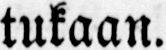tukaan.
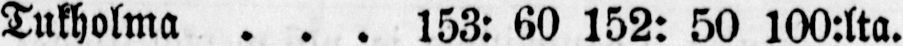Tukholma . . . 153: 60 152: 50 100:lta.
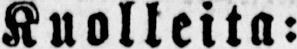Kuolleita:
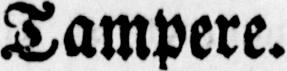Tampere.
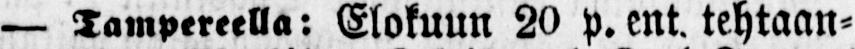— Tampereella : Elokuun 20 p. ent. tehtaan-
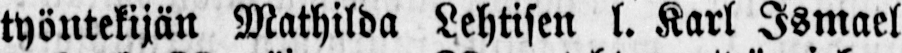työntekijän Mathilda Lehtisen l. Karl Ismael
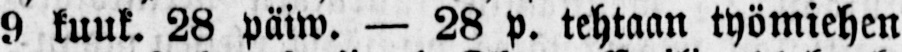9 kuuk. 28 päiw. — 28 p. tehtaan työmiehen
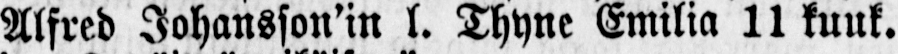Alfred Johansson’in l. Thyne Emilia 11 kuuk.
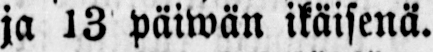ja 13 päiwän ikäisenä.
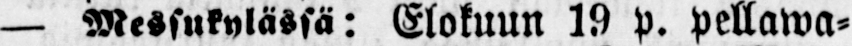— Messukylässä: Elokuun 19 p. pellawa-
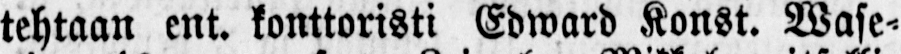tehtaan ent. konttoristi Edward Konst. Wase-
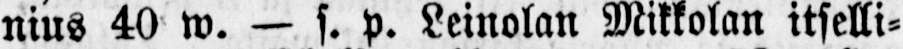nius 40 w. — s. p. Leinolan Mikkolan itselli-
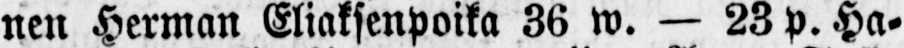nen Herman Eliaksenpoika 36 w. — 23p. Ha-
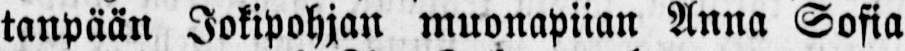tanpään Jokipohjan muonapiian Anna Sofia
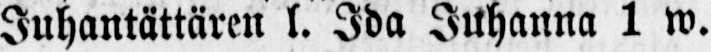Juhantättären l. Ida Juhanna 1 w.
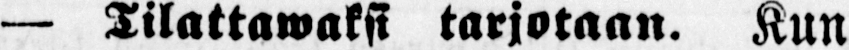— Tilattawaksi tarjotaan. Kun
